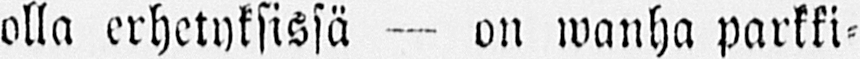olla erhetyksissä — on wanha parkki-
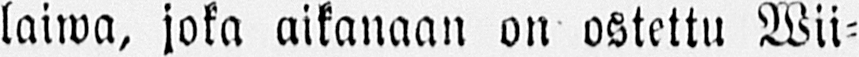laiwa, joka aikanaan on ostettu Wii-
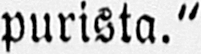purista."
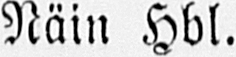Näin Hbl.
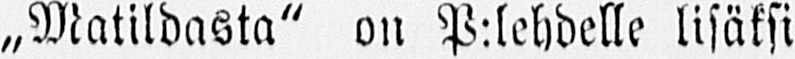„Matildasta" on P:lehdelle lisäksi
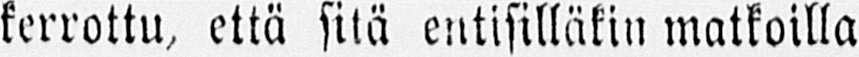kerrottu, että sitä entisilläkin matkoilla
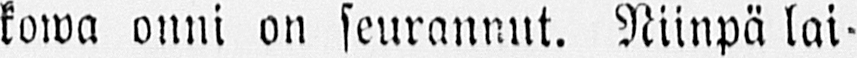kowa onni on seurannut. Niinpä lai-
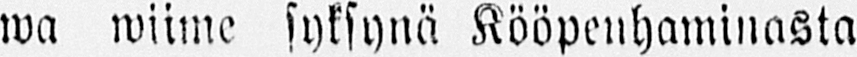wa wiime syksynä Kööpenhaminasta
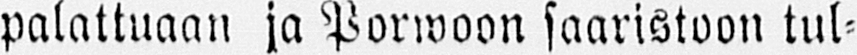palattuaan ja Porwoon saaristoon tul-
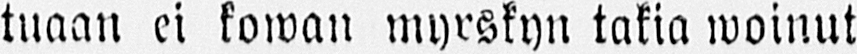tuaan ei kowan myrskyn takia woinut
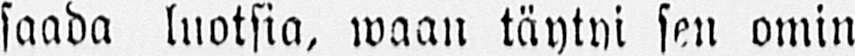saada luotsia, waan täytyi sen omin
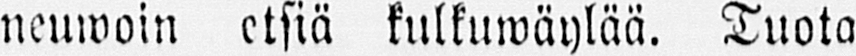neuwoin etsiä kulkuwäylää. Tuota
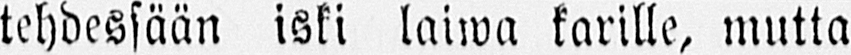tehdessään iski laiwa karille, mutta
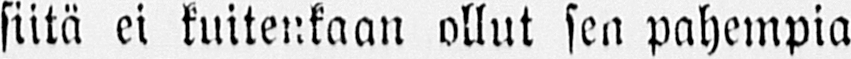siitä ei kuitenkaan ollut sen pahempia
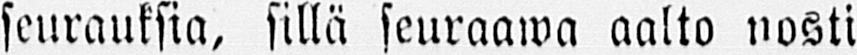seurauksia, sillä seuraawa aalto nosti
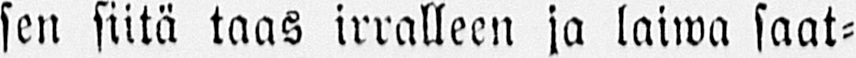sen siitä taas irralleen ja laiwa saat-
